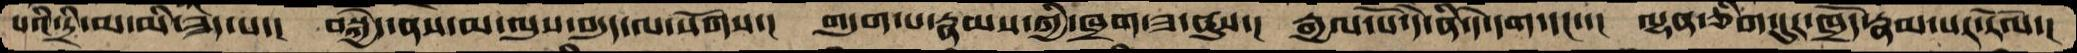པའི་དྲི་མ་མི་ཟེད་པ་།  བསྐྱེད་ནས་མ་ལུས་བདུད་ལ་སོགས་།  གདུག་པ་རྣམས་ཀྱི་ཁྲག་ཟ་ནུས་།  རྒྱལ་པོ་དེ་ནི་དེ་དག་དང་་།  ལྷན་ཅིག་དུར་ཁྲོད་རྣམ་པར་རོལ་།
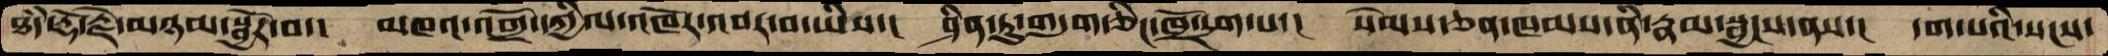ཐཾད་རྡོ་རྗེ་མཉམ་སྦྱོར་བ་།  མཁའ་འགྲོ་དཀྱིལ་འཁོར་འབར་བ་ཡིས་།  ཤིན་ཏུ་གདུག་ཅིང་ཁྲོ་དྲག་པ་།  སེམས་ཅན་ཁམས་ནི་རྣམ་སྦྱངས་ནས་།  དག་པའི་སངས་
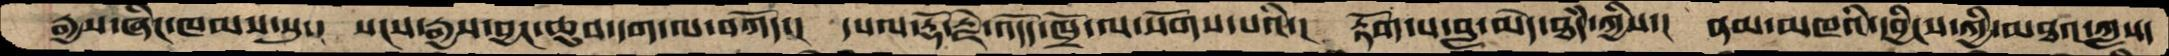རྒྱས་ཞིང་ཁམས་སུ་།  སངས་རྒྱས་བྱང་ཆུབ་དག་ལ་བཀོད་།  དཔལ་རྡོ་རྗེ་འདོད་ཁྲོ་ལ་སོགས་པའི་།  རྟོག་པ་བླ་མེད་ཐཾད་ཀྱིས་།  ནམ་མཁའི་དབྱིངས་ཀྱི་མཐའ་ཀླས་
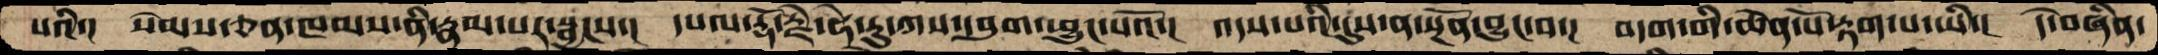པའི་།    སེམས་ཅན་ཁམས་ནི་རྣམ་པར་སྦྱངས་།   དཔལ་རྡོ་རྗེ་ཧེ་རུ་ཀས་དབུག་ཕྱུང་པའོ་།  འདས་པའི་དུས་ན་སྔོན་བྱུང་བ་།  བདག་གི་ཆེན་པོ་རྟག་པ་ཡི་།  དེ་བཞིན་
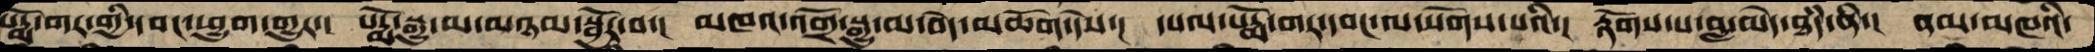པདྨོ་གར་གྱི་དབང་ཕྱུག་གྱུར་།  པདྨོ་སྒྱུ་མ་མཉམ་སྦྱོར་བ་།  མཁའ་འགྲོ་སྒྱུ་མ་བདེ་མཆོག་དེས་།  དཔལ་པདྨོ་གར་དབང་ལ་སོགས་པའི་།  རྟོགས་པ་བླ་མེད་ཐཾད་ནི་།  ནམ་མཁའི་
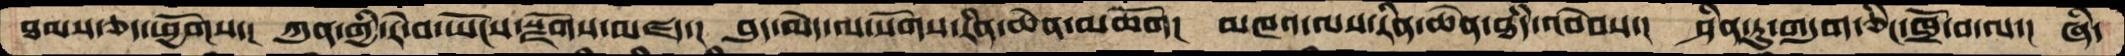ཐམས་ཅད་ཕྱོགས་།  ཀུན་གྱི་རེ་བ་ཡོངས་སྫོགས་མཛད་།  བུད་མེད་ལ་སོགས་རིན་ཆེན་མཆོག།  མཁའ་ལ་རིན་ཆེན་ཐཾད་འབེབས་།  ཤིན་ཏུ་གདུག་ཅིང་ཁྲོ་བ་ལ་།  ཞི་
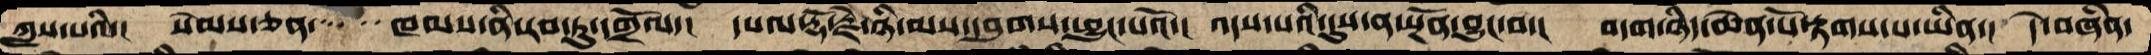ཀླས་པའི་།  སེམས་ཅན་   ཁམས་ནི་རབ་ཏུ་དགྲོལ་།  དཔལ་རྡོ་རྗེ་ཉི་མས་དབུགས་ཕྱུང་པའོ་།  འདས་པའི་དུས་ན་སྔོན་བྱུང་བ་།  བདག་ཉིད་ཆེན་པོ་རྟགས་པ་ཡིན་།  དེ་བཞིན་
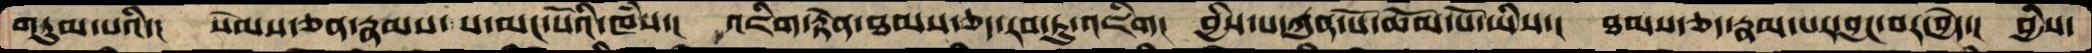གཏུམ་པའི་།   སེམས་ཅན་རྣམས་པ་མང་པོའི་ཁཾས་།  འཇིག་རྟེན་ཐམས་ཅད་རབ་ཏུ་འཇིག།  བྱིས་པ་རྐུན་པོ་ཆོམ་པོ་ཡིས་།  ཐམས་ཅད་རྣམ་པར་བྱང་བར་བྱེད་།  བྱིས་
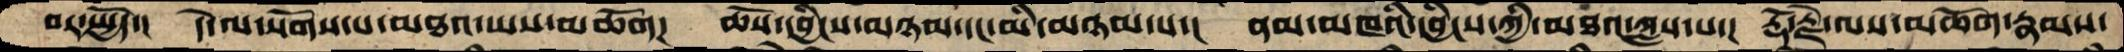བར་སྤྱོད་།  དེ་ལ་སོགས་པ་མཐའ་ཡས་མཆོག།  ཆོས་དབྱིངས་མཉམ་དང་མི་མཉམ་པ་།  ནམ་མཁའི་དབྱིངས་ཀྱི་མཐའ་ཀླས་པ་།  རྡོ་རྗེ་ལས་མཆོག་རྣམས་
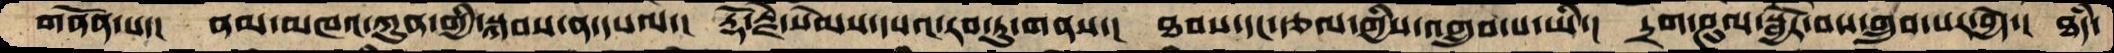གནོན་པ་།  ནམ་མཁའ་ཀུན་གྱི་སྐབས་ན་དཔལ་།  རྡོ་རྗེ་སེམས་དཔའ་རབ་ཏུ་གནས་།  ཐབས་དང་རྩལ་གྱིས་འགྲུབ་པ་ཡི་།   དྲག་ཤུལ་སྦྱོར་བས་གྲུབ་པར་བྱེད་།  ཐཾད་
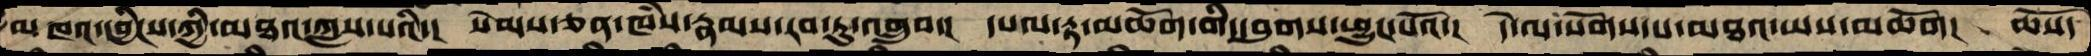མཁའ་དབྱིངས་ཀྱི་མཐའ་ཀླས་པའི་།  སེམས་ཅན་ཁཾས་རྣམས་རབ་ཏུ་འགྲུབ་།  དཔལ་རྟ་མཆོག་གི་དབུགས་ཕྱུང་པའོ་།  དེ་ལ་སོགས་པ་མཐའ་ཡས་མཆོག།  ཆོས་
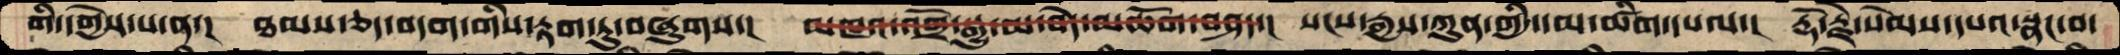གི་དགྱེས་པ་ན་།  ཐམས་ཅད་བདག་གིས་རྟག་ཏུ་བཞུགས་།  མཁའ་འགྲོ་སྒྱུ་མ་བདེ་མཆོག་བཤད་།  སངས་རྒྱས་ཀུན་གྱི་དམ་ཚིག་དཔལ་།  རྡོ་རྗེ་སེམས་དཔའ་སྣང་བ་
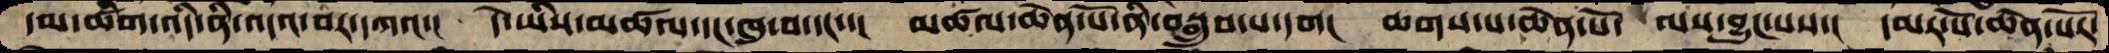དམ་ཚིག་འདི་ནི་འདའ་བར་དཀའ་།  དེ་ཡིས་མཚལ་དང་ཁུ་བ་དང་་།  མཚལ་ཆེན་པོ་ནི་བསྒྲུབ་པ་དག།  ཆགས་པ་ཆེན་པོ་ལས་བྱུང་པས་།  དམར་པོ་ཆེན་པོར་
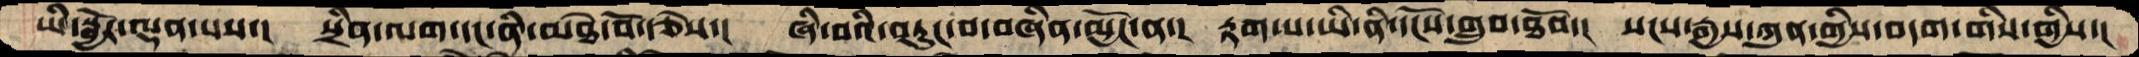ཡི་སྦྱོར་ལྡན་པས་།    སྲིན་ལག་དང་ནི་མཐེ་བོ་རྩེས་།  ཞི་བའི་བཏུང་བ་བཞིན་མྱོང་ན་།  རྟག་པ་ཡི་ནི་དངོས་གྲུབ་ཐོབ་།  སངས་རྒྱས་ཀུན་གྱིས་བདག་གིས་གྱིས་།
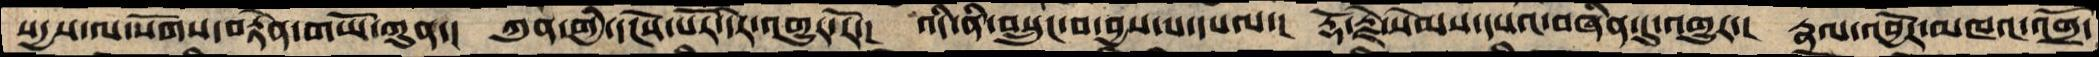སདྱས་ལ་སོགས་བརྟེན་གཡོ་ཀུན་།  ཀུན་གྱི་དངོས་པོར་དེར་འགྱུར་རོ་།  འདི་ནི་བསྲུང་བ་བྱས་པ་དཔལ་།  རྡོ་རྗེ་སེམས་དཔའ་བཞིན་དུ་འགྱུར་།  རྣལ་འབྱོར་མཁའ་འགྲོ་
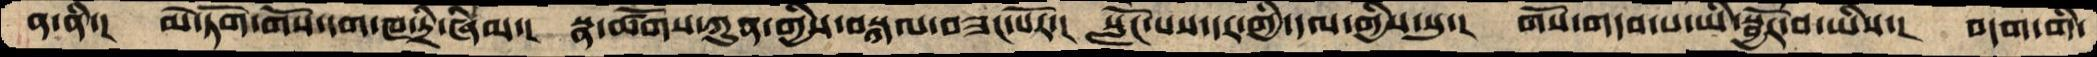ན་ནི་།  མེ་ཏོག་གོས་དག་ཁ་དྲི་ཞིམ་།  སྣ་ཚོགས་ཀུན་གྱིས་བསྐལ་བཟང་པོར་།  སློང་པས་དར་གྱི་དལ་གྱིས་སུ་།  གོས་གདབ་པ་ཡི་སྦྱོར་བ་ཡིས་།  བདག་གི་
